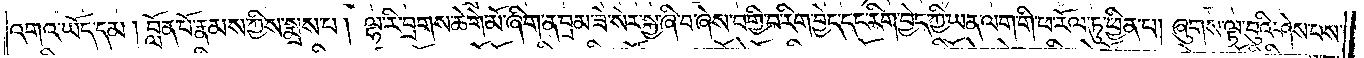འགའ་ཡོད་དམ། བློན་པོ་རྣམས་ཀྱིས་སྨྲས་པ། ལྷ་རི་བྲགས་ཆེ་གེ་མོ་ཞིག་ན་བྲམ་ཟེ་སེར་སྐྱ་ཞི་བ་ཞེས་བགྱི་བ་རིག་བྱེད་དང་རིག་བྱེད་ཀྱི་ཡན་ལག་གི་ཕ་རོལ་ཏུ་ཕྱིན་པ། ཞུགས་ལྟ་བུའི་ཤེས་པས་
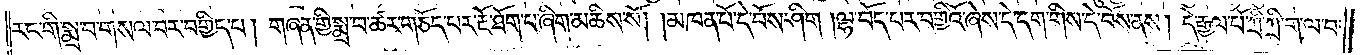རང་གི་སྨྲ་བ་གསལ་བར་བགྱིད་པ། གཞན་གྱི་སྨྲ་བ་ཚར་གཅོད་པར་རྔོ་ཐོག་པ་ཞིག་མཆིས་སོ། །མཁན་པོ་དེ་བོས་ཤིག །ལྷ་བོད་པར་བགྱིའོ་ཞེས་དེ་དག་གིས་དེ་བོས་ནས། དེ་རྒྱལ་པོ་ཀྲི་ཀྲི་ག་ལ་བ་
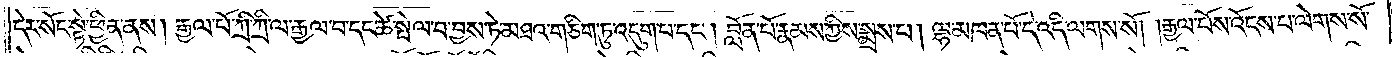དེར་སོང་སྟེ་ཕྱིན་ནས། རྒྱལ་པོ་ཀྲི་ཀྲི་ལ་རྒྱལ་བ་དང་ཚེ་སྤེལ་བ་བྱས་ཏེ་མཐའ་གཅིག་ཏུ་འདུག་པ་དང༌། བློན་པོ་རྣམས་ཀྱིས་སྨྲས་པ། ལྷ་མཁན་པོ་དེ་འདི་ལགས་སོ། །རྒྱལ་པོས་འོངས་པ་ལེགས་སོ་
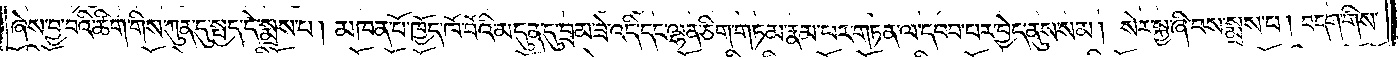ཞེས་བྱ་བའི་ཚིག་གིས་ཀུན་དུ་སྤྱད་དེ་སྨྲས་པ། མཁན་པོ་ཁྱོད་ཁོ་བོའི་མདུན་དུ་བྲམ་ཟེ་འདི་དང་ལྷན་ཅིག་གཏམ་རྣམ་པར་གཏན་ལ་དབབ་པར་བྱེད་ནུས་སམ། སེར་སྐྱ་ཞི་བས་སྨྲས་པ། བདག་གིས་
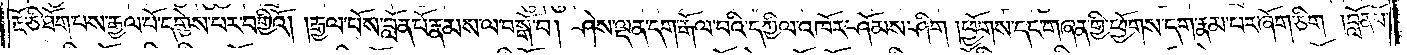རྡོ་ཅི་ཐོག་པས་རྒྱལ་པོ་དགྱེས་པར་བགྱིའོ། །རྒྱལ་པོས་བློན་པོ་རྣམས་ལ་བསྒོ་བ། ཤེས་ལྡན་དག་རྒོལ་བའི་དཀྱིལ་འཁོར་ཤོམས་ཤིག །ཕྱོགས་དང་གཞན་གྱི་ཕྱོགས་དག་རྣམ་པར་ཞོག་ཅིག །བློན་པོ་
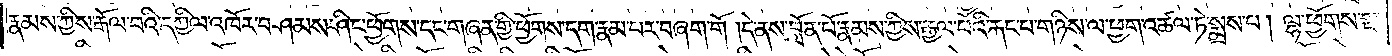རྣམས་ཀྱིས་རྒོལ་བའི་དཀྱིལ་འཁོར་བཤམས་ཤིང་ཕྱོགས་དང་གཞན་གྱི་ཕྱོགས་དག་རྣམ་པར་བཞག་གོ །དེ་ནས་བློན་པོ་རྣམས་ཀྱིས་རྒྱལ་པོའི་རྐང་པ་གཉིས་ལ་ཕྱག་འཚལ་ཏེ་སྨྲས་པ། ལྷ་ཕྱོགས་སྔ་
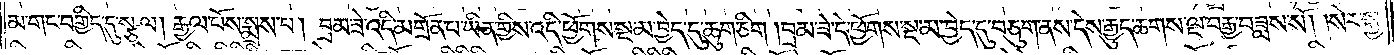མ་གང་བགྱིད་དུ་སྩལ། རྒྱལ་པོས་སྨྲས་པ། བྲམ་ཟེ་འདི་མགྲོན་པ་ཡིན་གྱིས་འདི་ཕྱོགས་སྔ་མ་བྱེད་དུ་ཆུག་ཅིག །བྲམ་ཟེ་དེ་ཕྱོགས་སྔ་མ་བྱེད་དུ་བཅུག་ནས་དེས་རྒྱུད་ཆགས་ལྔ་བརྒྱ་བཟླས་སོ། །སེར་སྐྱ་
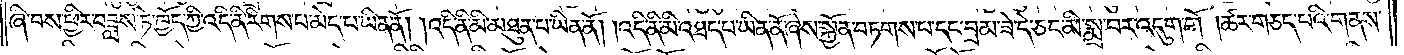ཞི་བས་ཕྱིར་བཟླས་ཏེ་ཁྱོད་ཀྱི་འདི་ནི་རིགས་པ་མེད་པ་ཡིན་ནོ། །འདི་ནི་མི་མཐུན་པ་ཡིན་ནོ། །འདི་ནི་མི་འཐད་པ་ཡིན་ནོ་ཞེས་སྐྱོན་བཏགས་པ་དང་བྲམ་ཟེ་དེ་ཅང་མི་སྨྲ་བར་འདུག་གོ །ཚར་གཅད་པའི་གནས་
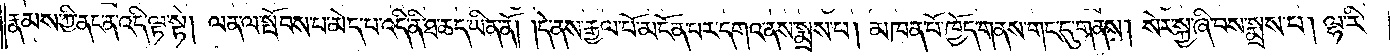རྣམས་ཀྱི་ནང་ན་འདི་ལྟ་སྟེ། ལན་ལ་སྤོབས་པ་མེད་པ་འདི་ནི་ཐ་ཆད་ཡིན་ནོ། །དེ་ནས་རྒྱལ་པོ་མངོན་པར་དགའ་ནས་སྨྲས་པ། མཁན་པོ་ཁྱོད་གནས་གང་དུ་གནས། སེར་སྐྱ་ཞི་བས་སྨྲས་པ། ལྷ་རི་
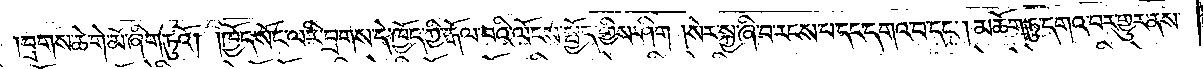།བྲགས་ཆེ་གེ་མོ་ཞིག་ཏུའོ། །ཁྱོད་སོང་ལ་རི་བྲགས་དེ་ཁྱོད་ཀྱི་རྒོལ་བའི་ལོངས་སྤྱོད་གྱིས་ཤིག །སེར་སྐྱ་ཞི་བ་རངས་པ་དང་དགའ་བ་དང༌། མཆོག་ཏུ་དགའ་བར་གྱུར་ནས་
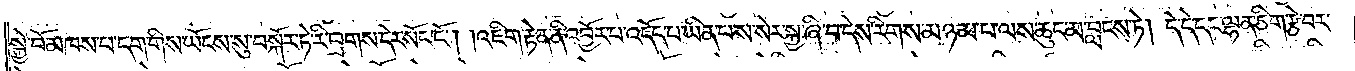སྐྱེ་བོ་མཁས་པ་དག་གིས་ཡོངས་སུ་བསྐོར་ཏེ་རི་བྲགས་དེར་སོང་ངོ༌། །འཇིག་རྟེན་ནི་འབྱོར་པ་འདོད་པ་ཡིན་པས་སེར་སྐྱ་ཞི་བ་དེས་རིགས་མཉམ་པ་ལས་ཆུང་མ་བླངས་ཏེ། དེ་དེ་དང་ལྷན་ཅིག་རྩེ་བར་
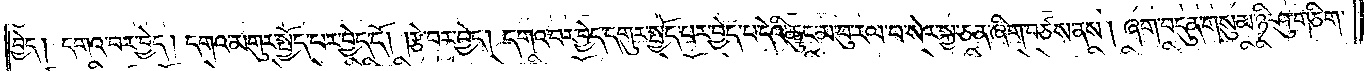བྱེད། དགའ་བར་བྱེད། དགའ་མགུར་སྤྱོད་པར་བྱེད་དོ། །རྩེ་བར་བྱེད། དགའ་བར་བྱེད་དགུར་སྤྱོད་པར་བྱེད་པ་དེའི་ཆུང་མ་བུ་རལ་པ་སེར་སྐྱ་ཅན་ཞིག་བཙས་ནས། ཞག་བདུན་གསུམ་ཉི་ཤུ་གཅིག་
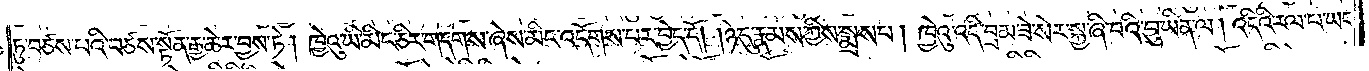ཏུ་བཙས་པའི་བཙས་སྟོན་རྒྱ་ཆེར་བྱས་ཏེ། ཁྱེའུ་ཡི་མིང་ཅིར་གདགས་ཞེས་མིང་འདོགས་པར་བྱེད་དོ། །ཉེ་དུ་རྣམས་ཀྱིས་སྨྲས་པ། ཁྱེའུ་འདི་བྲམ་ཟེ་སེར་སྐྱ་ཞི་བའི་བུ་ཡིན་ལ། འདིའི་རལ་པ་ཡང་
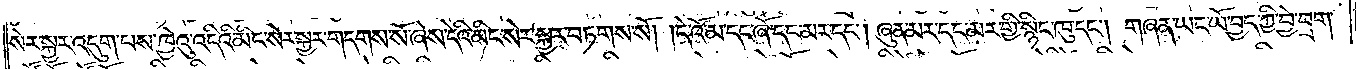སེར་སྐྱར་འདུག་པས་ཁྱེའུ་འདིའི་མིང་སེར་སྐྱར་གདགས་སོ་ཞེས་དེའི་མིང་སེར་སྐྱར་བཏགས་སོ། །དེ་འོ་མ་དང་ཞོ་དང་མར་དང༌། ཞུན་མར་དང་མར་གྱི་སྙིང་ཁུ་དང༌། གཞན་ཡང་ཡོ་བྱད་ཀྱི་བྱེ་བྲག་
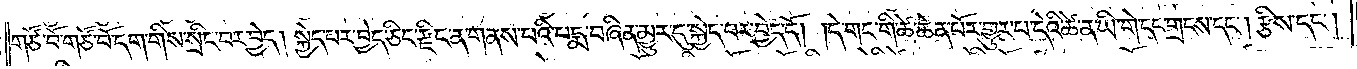གཙོ་བོ་གཙོ་བོ་དག་གིས་སྲིང་བར་བྱེད། སྐྱེད་པར་བྱེད་ཅིང་རྫིང་ན་གནས་པའི་པདྨ་བཞིན་མྱུར་དུ་སྐྱེད་པར་བྱེད་དོ། །དེ་གང་གི་ཚེ་ཆེན་པོར་གྱུར་པ་དེའི་ཚེ་ན་ཡི་གེ་དང་གྲངས་དང༌། རྩིས་དང༌།
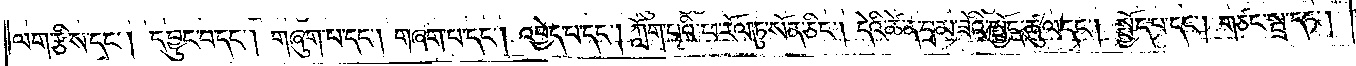ལག་རྩིས་དང༌། དབྱུང་བ་དང༌། གཞུག་པ་དང༌། གཞག་པ་དང༌། འབྱེད་པ་དང༌། ཀློག་པའི་ཕ་རོལ་ཏུ་སོན་ཅིང༌། དེའི་ཚེ་ན་བྲམ་ཟེའི་སྤྱོད་ཚུལ་དང༌། སྤྱོད་པ་དང༌། གཙང་སྦྲ་དང༌།
